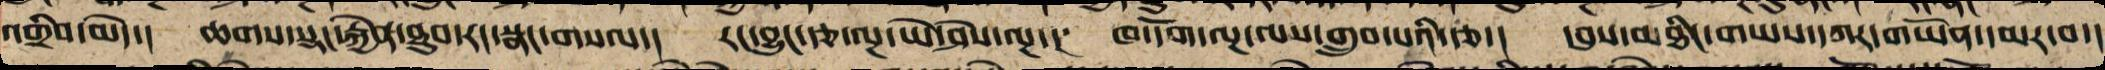འགྲིབ་མེད་། ཆགས་སྡང་རྐྱེན་ཐུབ་རང་སྣང་གསལ། རང་བྱུང་རྩ་ལྔ་ཡེ་ཤེས་ལྔ་། ཁ་དོག་ལྔ་ལས་གྲུབ་པའི་རྩ་། དབུས་མཐིང་གཡས་དཀར་གཡོན་དམར་བ་།
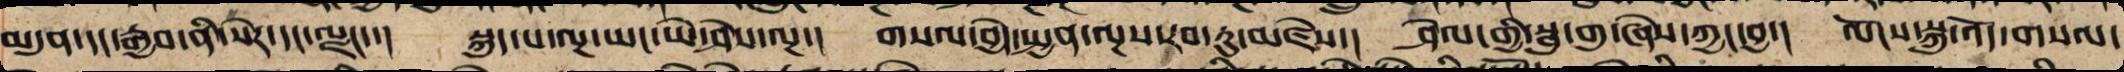མདུན་དང་རྒྱབ་ནི་སེར་དང་ལྗང་་། སྐུད་པ་ལྔ་ཡང་ཡེ་ཤེས་ལྔ་། གསལ་བྱེད་སྤྱན་ལྔས་རབ་ཏུ་མཛེས་། ཤེལ་གྱི་སྦུ་གུ་ཞེས་ཀྱང་བྱ།་ ལོངས་སྐུ་འོད་གསལ་
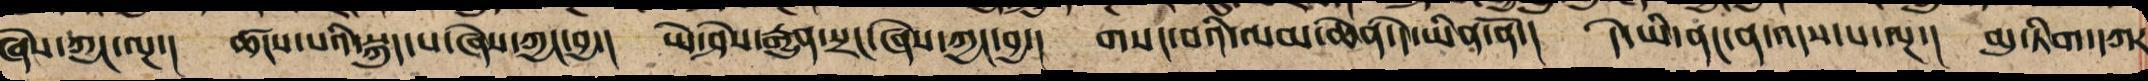ཞེས་ཀྱང་ལྔ་། ཚངས་པའི་སྐུད་པ་ཞེས་ཀྱང་བྱ་། ཡེ་ཤེས་རྒྱུ་སྲང་ཞེས་ཀྱང་བྱ་། གསང་བའི་ལམ་ཆེན་དེ་ཡིན་ནོ་། དེ་ཡི་ནང་ན་འདས་པ་ལྔ་། མུ་ཏིག་དཀར
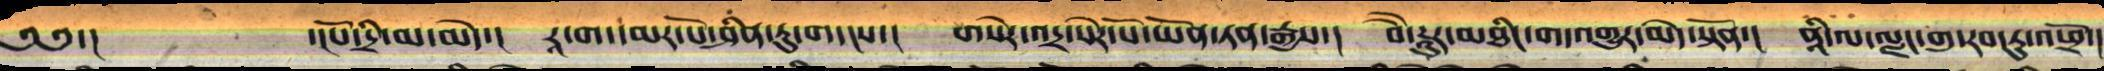༄༅་།  ་།པོ་དྲི་མ་མེད་། རཱ་ག་དམར་པོ་ཤིན་ཏུ་དྭངས་། གསེར་འདྲ་སེར་པོ་ཡོན་ཏན་རྒྱས་། བཻ་ཌཱུར་མཐིང་ག་འགྱུར་མེད་སྟོན་། ནཱི་ལ་ལྗང་གུ་རབ་ཏུ་འཕྲོ་།
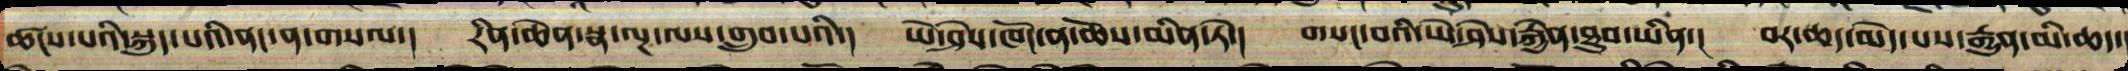ཚངས་པའི་སྐུད་པའི་ནང་ན་གསལ་། རིན་ཆེན་སྣ་ལྔ་ལས་གྲུབ་པའི་། ཡེ་ཤེས་ཁོ་ན་ཆོས་མིན་ཏེ་། གསང་བའི་ཡེ་ཤེས་རྐྱེན་ཐུབ་ཡིན་། བར་ཆད་མེད་པས་རྒྱུན་མི་འཆད་།
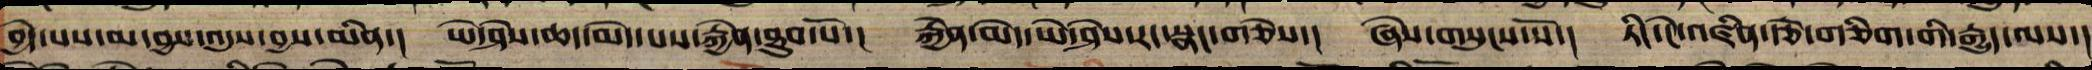བྱེད་པས་མ་བྱས་འདུས་བྱས་མིན་། ཡེ་ཤེས་ཆད་མེད་པསརྐྱེན་ཐུབ་པོ་། རྐྱེན་མེད་ཡེ་ཤེས་རང་སྣང་གཅེས་། ཞེས་གསུངས་སོ་། ཏིང་ངེ་འཛིན་རྩེ་གཅིག་གི་རྒྱུད་ལས་།
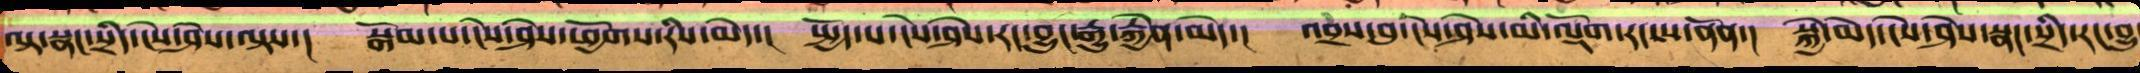བལྟ་སྣང་སྲིད་ངེས་ཤེས་ལྟས་། བསྒོམ་པ་རང་ཤར་ངེས་ཤེས་ཕྱོགས་རིས་མེད་། སྤྱོད་པ་ངེས་ཤེས་རང་བྱུང་རྒྱུ་རྐྱེན་མེད་། འབྲས་བུ་ངེས་ཤེས་མི་ལྡོག་རང་ས་ནོན་། སྐྱེ་མེད་ངེས་ཤེས་སྣང་སྲིད་རང་བྱུང
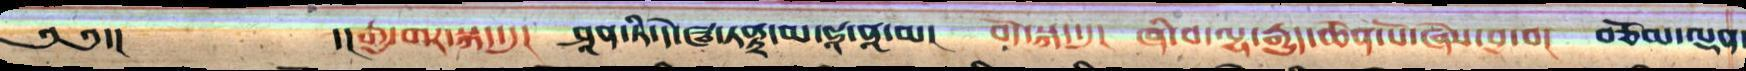༄༅་། ་།རྒྱ་གར་སྐད་དུ། ཤཱན་ཏི་དེ་ཝ་ཏནྟྲ་མ་ཧཱ་ནཱ་མ། བོད་སྐད་དུ། ཞི་བ་ལྷ་རྒྱུད་ཆེན་པོ་ཞེས་བྱ་བ། བཅོམ་ལྡན་
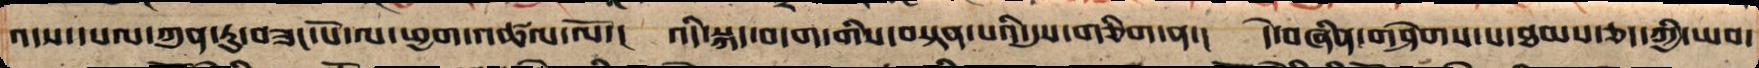འདས་དཔལ་ཀུན་ཏུ་བཟང་པོ་ལ་ཕྱག་འཚལ་ལོ་། འདི་སྐད་བདག་གིས་བསྟན་པའི་དུས་གཅིག་ན་། དེ་བཞིན་གཤེགས་པ་ཐམས་ཅད་ཀྱི་ཡབ་
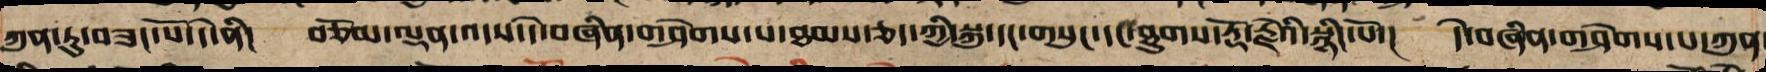ཀུན་ཏུ་བཟང་པོ་དེ་ནི། བཅོམ་ལྡན་འདས་དེ་བཞིན་གཤེགས་པ་ཐམས་ཅད་ཀྱི་སྐུ་དང་གསུང་དང་ཐུགས་རྡོ་རྗེའི་སྙིང་པོ་། དེ་བཞིན་གཤེགས་པ་ཀུན་
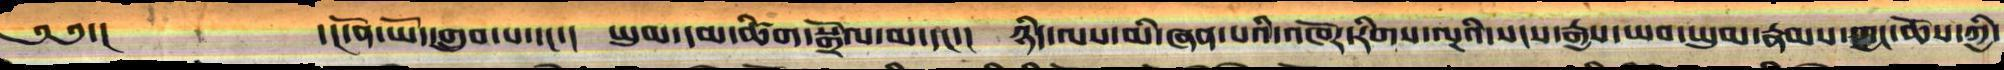༄༅་། ་།དོན་ཡོད་གྲུབ་པ་དང་། ཡུམ་དམ་ཚིག་སྒྲོལ་མ་དང་། ཉིད་ལས་མི་གཞན་པའི་འཁོར་རིགས་ལྔའི་སངས་རྒྱས་ཡབ་ཡུམ་རྣམས་ཀྱང་ཆོས་ཀྱི་
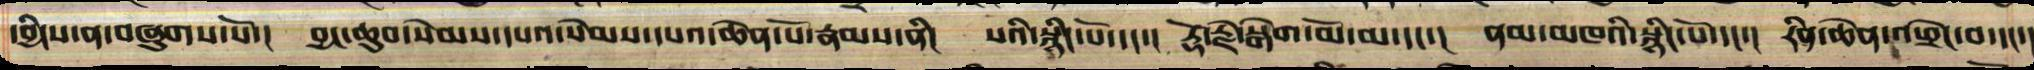དབྱིངས་ན་བཞུགས་སོ་། བྱང་ཆུབ་སེམས་དཔའ་སེམས་དཔའ་ཆེན་པོ་རྣམས་ནི་། སའི་སྙིང་པོ་དང་། རྡོ་རྗེ་སྒེག་མོ་དང་། ནམ་མཁའི་སྙིང་པོ་དང་། རིན་ཆེན་ཕྲེང་བ་དང་།
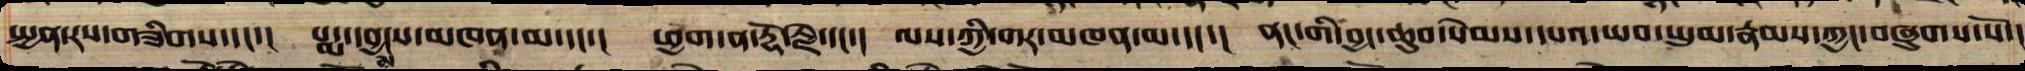སྤྱན་རས་གཟིགས་དང་། པདྨ་དབྱངས་མཁན་མ་དང་། ཕྱག་ན་རྡོ་རྗེ་དང་། ལས་ཀྱི་གར་མཁན་མ་དང་། ནང་གི་བྱང་ཆུབ་སེམས་དཔའ་ཡབ་ཡུམ་རྣམས་ཀྱང་བཞུགས་སོ་།
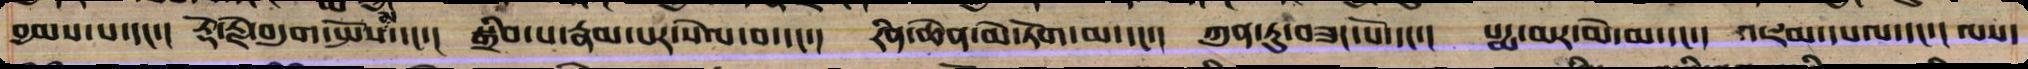བྱམས་པ་དང་། རྡོ་རྗེ་བདུག་སྤོས་མ་དང་།སྒྲིབ་པ་རྣམ་པར་སེལ་བ་དང་། རིན་ཆེན་མེ་ཏོག་མ་དང་། ཀུན་ཏུ་བཟང་པོ་དང་། པདྨ་མར་མེ་མ་དང་། འཇམ་དཔལ་དང་། ལས་
